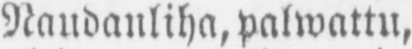Naudanliha, pallvattu,
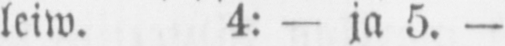leiw. 4: — ja 5. —
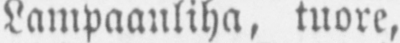Lampaanliha, tuore,
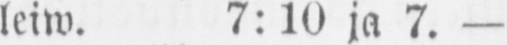leiw. 7:10 ja 7.—
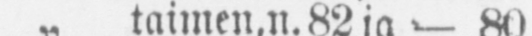„taimen,n.82 ja-80
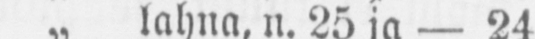„lahna, n. 25 ja — 24
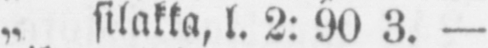"silakka, l. 2: 90 3. —
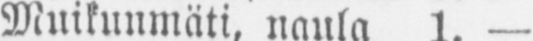Muikunmäti, naula 1. —
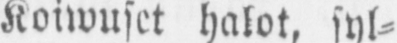Koiwuset halot, syl-
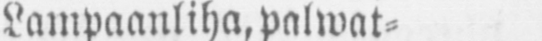Lampaanliha,palwat-
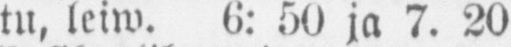tu, leiw. 6.50 ja 7.20
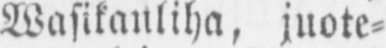Wasikanliha, juote-
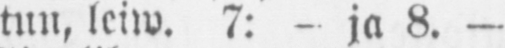tun, leiw. 7: - ja 8.—
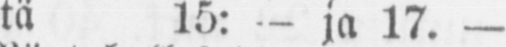tä 15: - ja 17. -
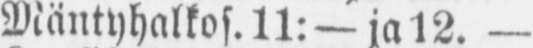Mäntyalkos.11: —ja 12.—
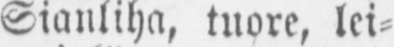Sianliha, tuore, lei-
